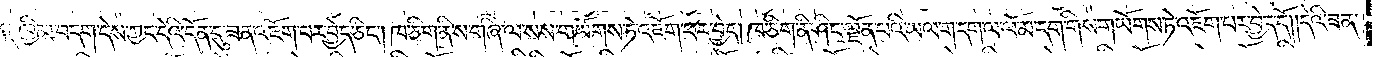ན༑ ཁྱིམ་བདག་དེས་ཀྱང་དེའི་དོན་དུ་ཟན་འཇོག་པར་བྱེད་ཅིང༌། ཁ་ཅིག་ནི་ས་གཞི་ལ་སས་གཡོགས་ཏེ་འཇོག་པར་བྱེད། ཁ་ཅིག་ནི་ཤིང་ལྗོན་པའི་ཡལ་ག་དག་ལ་ལོ་མ་དག་གིས་གཡོགས་ཏེ་འཇོག་པར་བྱེད་དོ། །དེའི་ཟན་
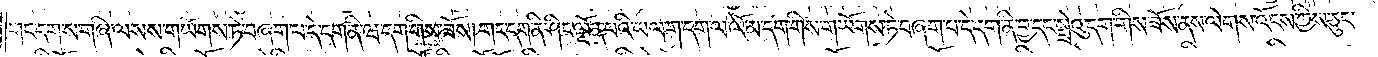གང་དག་ས་གཞི་ལ་སས་གཡོགས་ཏེ་བཞག་པ་དེ་དག་ནི་ཝ་དག་གིས་ཟོས།གང་དག་ནི་ཤིང་ལྗོན་པའི་ཡལ་ག་དག་ལ་ལོ་མ་དག་གིས་གཡོགས་ཏེ་བཞག་པ་དེ་དག་ནི་བྱ་དང་སྤྲེའུ་དག་གིས་ཟོས་ནས་ལེགས་འོངས་ཀྱིས་ཅུང་
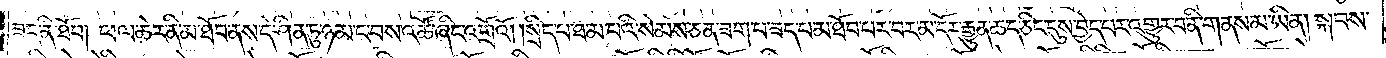ཟད་ནི་ཐོབ། ཕལ་ཆེར་ནི་མ་ཐོབ་ནས་དེ་ཤིན་ཏུ་ཉམ་ང་བས་འཚོ་ཞིང་འགྲོའོ༎སྲིད་པ་ཐ་མ་པའི་སེམས་ཅན་ཟག་པ་ཟད་པ་མ་ཐོབ་པར་བར་མ་དོར་རྒྱུན་ཆད་ཅིང་དུས་བྱེད་པར་འགྱུར་བ་ནི་གནས་མ་ཡིན། སྐབས་
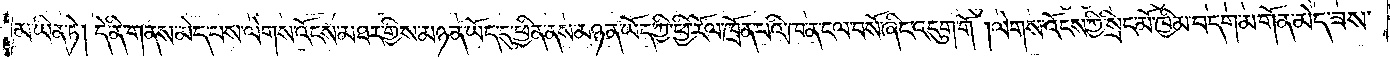མ་ཡིན་ཏེ། དེ་ནི་གནས་མེད་པས་ལེགས་འོངས་མཐར་གྱིས་མཉན་ཡོད་དུ་ཕྱིན་ནས་མཉན་ཡོད་ཀྱི་ཕྱི་རོལ་ཁྲོན་པའི་ཁ་ན་ངལ་བསོ་ཞིང་འདུག་གོ །ལེགས་འོངས་ཀྱི་སྲིང་མོ་ཁྱིམ་བདག་མགོན་མེད་ཟས་
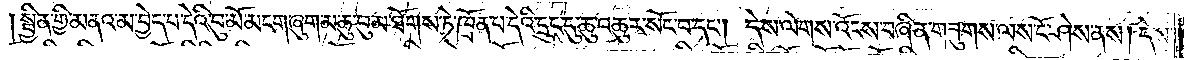སྦྱིན་གྱི་མནའ་མ་བྱེད་པ་དེའི་བུ་མོ་མངག་ཞུག་མ་ཆུ་བུམ་ཐོགས་ཏེ་ཁྲོན་པ་དེའི་དྲུང་དུ་ཆུ་འཆུར་སོང་བ་དང༌། དེས་ལེགས་འོངས་བཞིན་གཟུགས་ལས་ངོ་ཤེས་ནས། དེས་
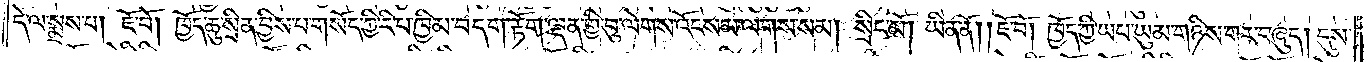དེ་ལ་སྨྲས་པ། ཇོ་བོ། ཁྱོད་ཆུ་སྲིན་བྱིས་པ་གསོད་ཀྱི་རི་བ་ཁྱིམ་བདག་རྟོག་ལྡན་གྱི་བུ་ལེགས་འོངས་མ་ལགས་སམ། སྲིང་མོ། ཡིན་ནོ། །ཇོ་བོ། ཁྱོད་ཀྱི་ཡབ་ཡུམ་གཉིས་གར་བཞུད། དུས་
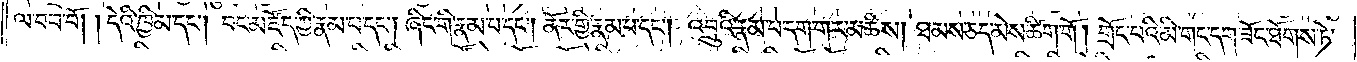ལ་བབ་བོ། །དེའི་ཁྱིམ་དང༌། བང་མཛོད་ཀྱི་རྣམ་པ་དང༌། ཞིང་གི་རྣམ་པ་དང༌། ནོར་གྱི་རྣམ་པ་དང༌། འབྲུའི་རྣམ་པ་དག་གར་མཆིས། ཐམས་ཅད་མེས་ཚིག་གོ །གྲོང་བའི་མི་གང་དག་ཟོང་ཐོགས་ཏེ་
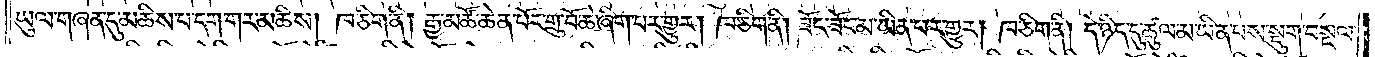ཡུལ་གཞན་དུ་མཆིས་པ་དག་གར་མཆིས། ཁ་ཅིག་ནི། རྒྱ་མཚོ་ཆེན་པོར་གྲུ་བོ་ཆེ་ཞིག་པར་གྱུར། ཁ་ཅིག་ན། ཟོང་ཟོང་མ་ཡིན་པར་གྱུར། ཁ་ཅིག་ནི། དེ་ཉིད་དུ་ཚུལ་མ་ཡིན་པས་སྡུག་བསྔལ་
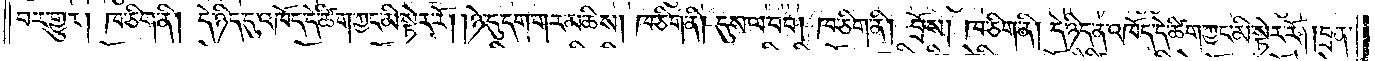བར་གྱུར། ཁ་ཅིག་ནི། དེ་ཉིད་དུ་འཁོད་དེ་ཚིག་ཀྱང་མི་སྟེར་རོ། །ཉེ་དུ་དག་གར་མཆིས། ཁ་ཅིག་ནི། དུས་ལ་བབ། ཁ་ཅིག་ནི། བྲོས། ཁ་ཅིག་ནི། དེ་ཉིད་ན་འཁོད་དེ་ཚིག་ཀྱང་མི་སྟེར་རོ༎བྲན་
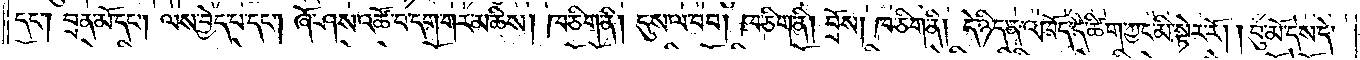དང༌། བྲན་མོ་དང༌། ལས་བྱེད་པ་དང༌། ཞོ་ཤས་འཚོ་བ་དག་གར་མཆིས། ཁ་ཅིག་ནི། དུས་ལ་བབ། ཁ་ཅིག་ནི། བྲོས། ཁ་ཅིག་ནི། དེ་ཉིད་ན་འཁོད་དེ་ཚིག་ཀྱང་མི་སྟེར་རོ། །བུ་མོ་དེས་དེ་
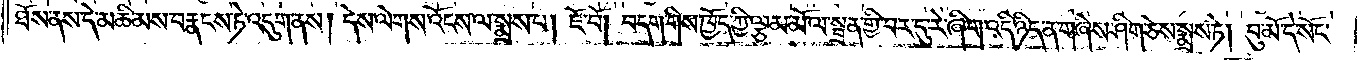ཐོས་ནས་དེ་མཆི་མས་བརྣངས་ཏེ་འདུག་ནས། དེས་ལེགས་འོངས་ལ་སྨྲས་པ། ཇོ་བོ། བདག་གིས་ཁྱོད་ཀྱི་ལྕམ་མོ་ལ་སྦྲན་གྱི་བར་དུ་རེ་ཞིག་འདི་ཉིད་ན་གཞེས་ཤིག་ཅེས་སྨྲས་ཏེ། བུ་མོ་དེ་སོང་
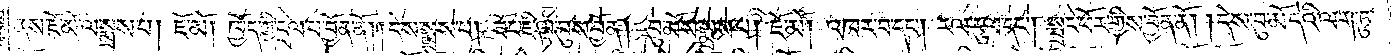ནས་ཇོ་མོ་ལ་སྨྲས་པ། ཇོ་མོ། ཁྱོད་ཀྱི་དྲལ་བ་བྱོན་ནོ། །དེས་སྨྲས་པ། ཟོང་ཇི་ལྟ་བུས་བྱོན། བུ་མོས་སྨྲས་པ། ཇོ་མོ། འཁར་བ་དང༌། རལ་རུལ་དང༌། སྤྲང་ཕོར་གྱིས་བྱོན་ནོ། །དེས་བུ་མོ་དེའི་ལག་ཏུ་
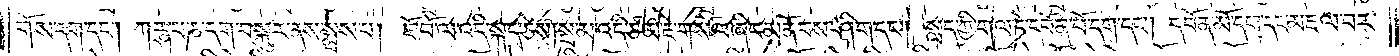གོས་དག་དང༌། ཀཪྴ་པ་ཎ་དག་བསྐུར་ནས་སྨྲས་པ། ཇོ་བོ་ལ་འདི་སྐད་ཅེས། སྔ་མ་འདི་ཙམ་ཇེ་གསོལ་ཞིང་མ་ནོབས་ཤིག་དང༌། སླད་ཀྱི་གལ་ཏེ་དབོན་པོ་དག་དང༌། དབོན་མོ་དག་དང་མཇལ་བར་
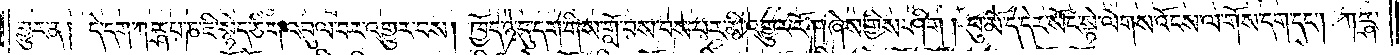གྱུར་ན། དེ་དག་ཀཪྴ་པ་ཎ་ཇི་སྙེད་ཅིག་འབུལ་བར་འགྱུར་བས། ཁྱོད་ཉེ་དུ་དག་གིས་གློ་བས་བས་པར་མི་འགྱུར་རོ། །ཞེས་གྱིས་ཤིག །བུ་མོ་དེ་དེར་སོང་སྟེ་ལེགས་འོངས་ལ་གོས་དག་དང༌། ཀཪྴ་
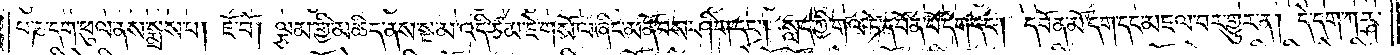པ་ཎ་དག་ཕུལ་ནས་སྨྲས་པ། ཇོ་བོ། ལྕམ་གྱི་མཆིད་ནས་སྔ་མ་འདི་ཙམ་ཇེ་གསོལ་ཞིང་མ་ནོབས་ཤིག་དང༌། སླད་ཀྱི་གལ་ཏེ་དབོན་པོ་དག་དང༌། དབོན་མོ་དག་དང་མཇལ་བར་གྱུར་ན། དེ་དག་ཀཪྴ་
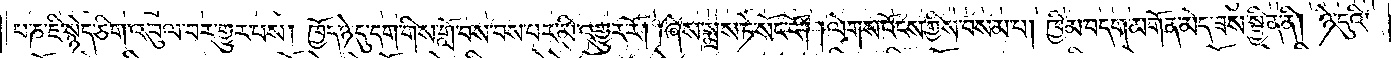པ་ཎ་ཇི་སྙེད་ཅིག་འབུལ་བར་གྱུར་པས། ཁྱོད་ཉེ་དུ་དག་གིས་གློ་བས་བས་པར་མི་འགྱུར་རོ། །ཞེས་སྨྲས་ཏེ་སོང་ངོ༌། །ལེགས་འོངས་ཀྱིས་བསམ་པ། ཁྱིམ་བདག་མགོན་མེད་ཟས་སྦྱིན་ནི། ཉེ་དུའི་
